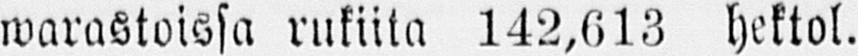warastoissa rukiita 142,613 hektol.
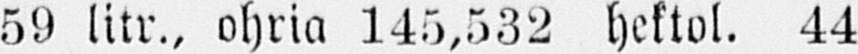59 litr., ohria 145,532 hektol. 44
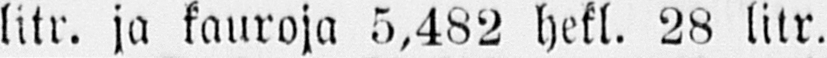litr. ja kauroja 5,482 hekl. 28 litr.
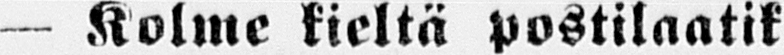— Kolme kieltä postilaatik-
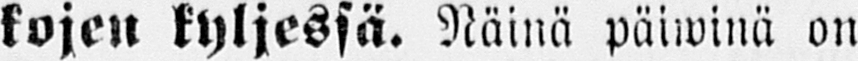kojen kyljessä. Näinä päiwinä on
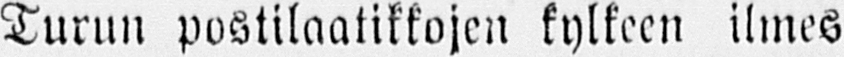Turun postilaatikkojen kylkeen ilmes-
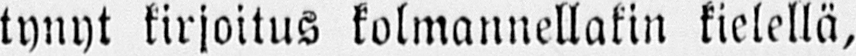tynyt kirjoitus kolmannellakin kielellä,
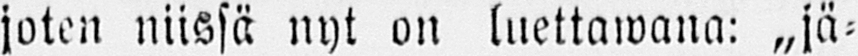joten niissä nyt on luettawana: „jä-
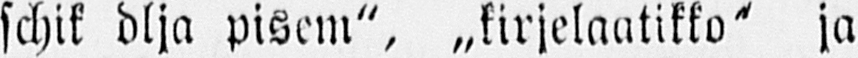schik dlja pisem", „kirjelaatikko" ja
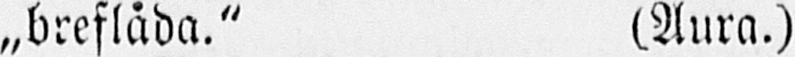„breflåda." (Aura.)
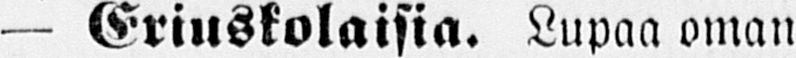— Eriuskolaisia. Lupaa oman
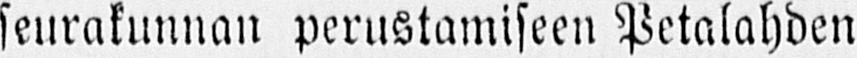seurakunnan perustamiseen Petalahden
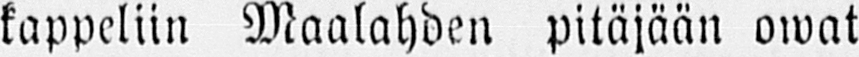kappeliin Maalahden pitäjään owat
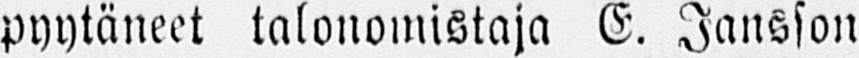pyytäneet talonomistaja E. Jansson
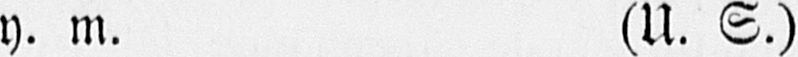y. m. (U. S.)
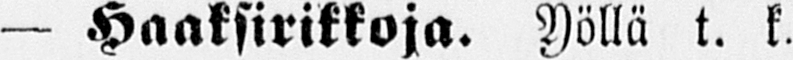— Haaksirikkoja. Yöllä t. k.
